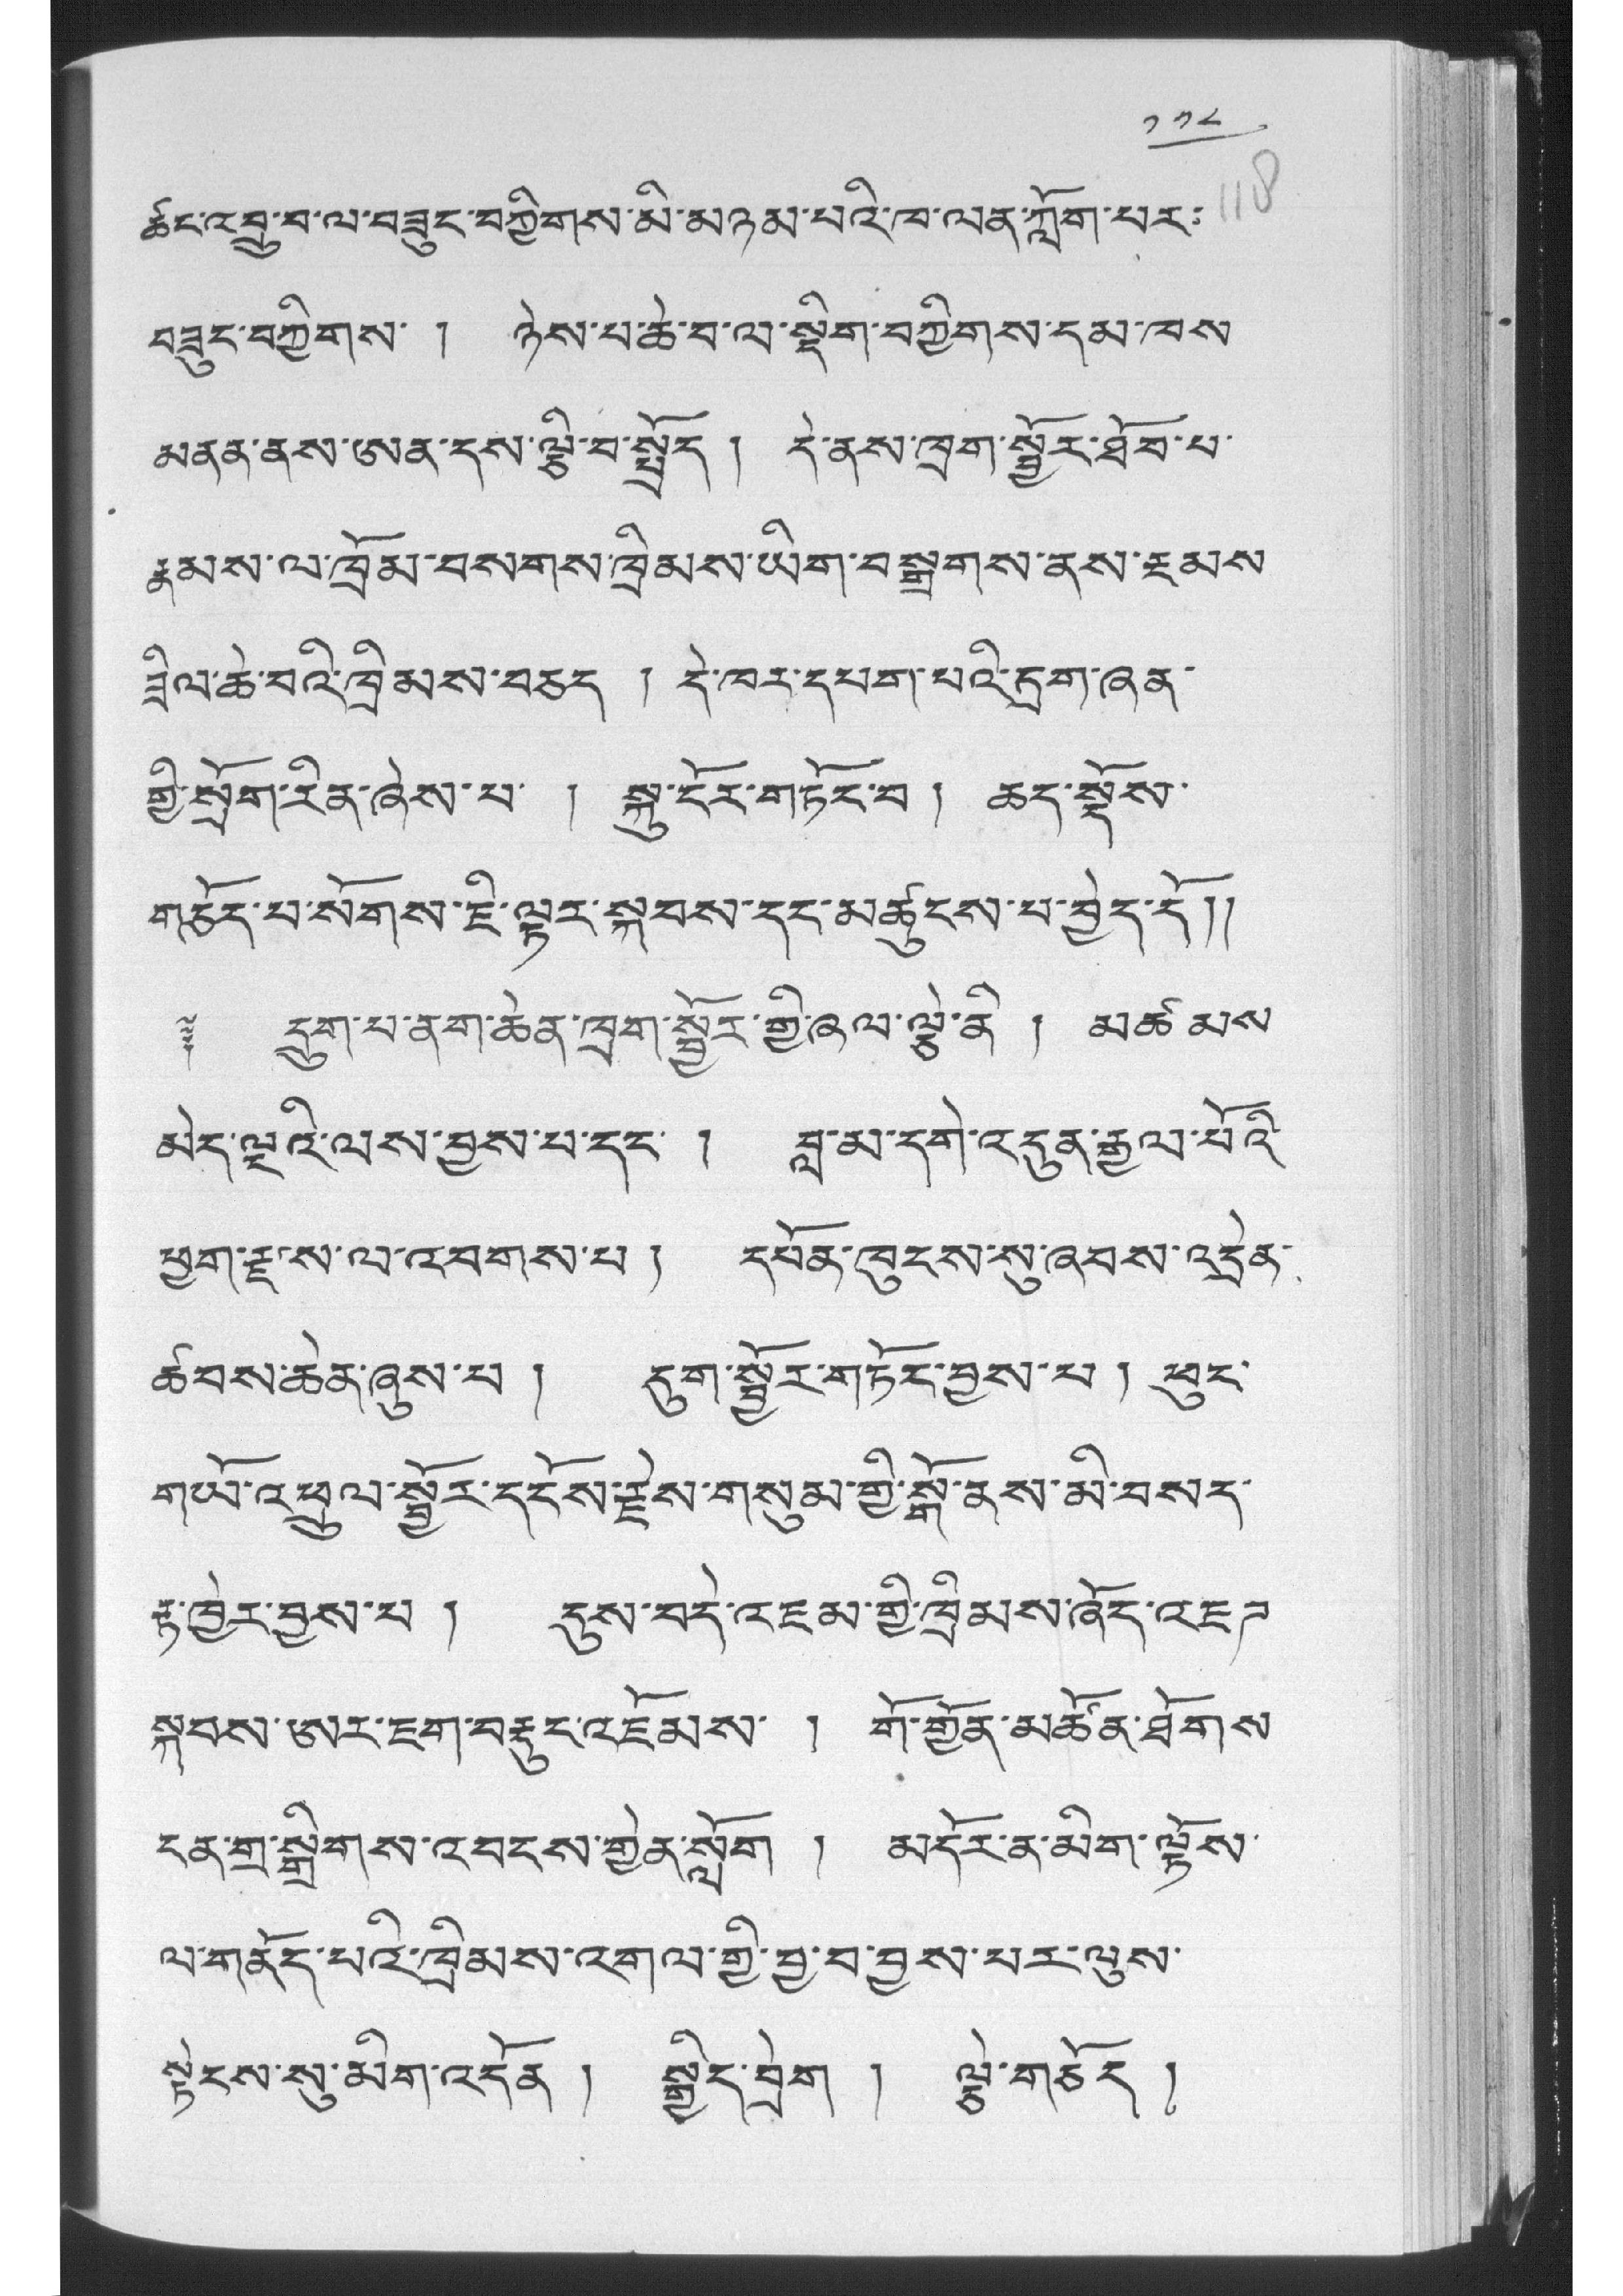༡༡༨
ཚང་འབྲུ་བ་ལ་བཟུང་བཀྱིགས་མི་མཉམ་པའི་ཁ་ལན་ཀློག་པར་
བཟུང་བཀྱིགས་ ། ཉེས་པ་ཆེ་བ་ལ་སྡིག་བཀྱིགས་དམ་ཁས་
མནན་ནས་ཨན་དས་ལྕི་བ་སྤྲོད། དེ་ནས་ཁྲག་སྦྱོར་ཐོབ་པ་
རྣམས་ལ་ཁྲོམ་བསགས་ཁྲིམས་ཡིག་བསྒྲགས་ནས་རྔམས་
ཟིལ་ཆེ་བའི་ཁྲིམས་བཅད ། དེ་ཁར་དཔག་པའི་དྲག་ཞན་
གྱི་སྲོག་རིན་ཞེས་པ་ ། སྐུ་ངོར་གཏོང་བ ། ཆད་སྡོས་
གཅོད་པ་སོགས་ཇི་ལྟར་སྐབས་དང་མཚུངས་པ་བྱེད་དོ༎
༈ དྲུག་པ་ནག་ཆེན་ཁྲག་སྦྱོར་གྱི་ཞལ་ལྕེ་ནི ། མཚམས་
མེད་ལྔའི་ལས་བྱས་པ་དང་ ། བླ་མ་དགེ་འདུན་རྒྱལ་པོའི་
ཕྱག་རྫས་ལ་འབགས་པ། དཔོན་ཁུངས་སུ་ཞབས་འདྲེན་
ཚབས་ཆེན་ཞུས་པ ། དུག་སྦྱོར་གཏོང་བྱས་པ། ཕུང་
གཡོ་འཕྲུལ་སྦྱོར་དངོས་རྗེས་གསུམ་གྱི་སྒོ་ནས་མི་བསད་
རྟ་ཁྱེར་བྱས་པ ། དུས་བདེ་འཇམ་གྱི་ཁྲིམས་ཞོད་འཇཊ་
སྐབས་ཨར་ཇག་བརྡུང་འཇོམས་ ། གོ་གྱོན་མཚོན་ཐོགས་
ངན་གྲ་སྒྲིགས་འབངས་གྱེན་སློག ། མདོར་ན་མིག་ལྟོས་
ལ་གནོད་པའི་ཁྲིམས་འགལ་གྱི་བྱ་བ་བྱས་པར་ལུས་
སྟེངས་སུ་མིག་འདོན ། སྒྱིད་བྲེག ། ལྕེ་གཅོད།
